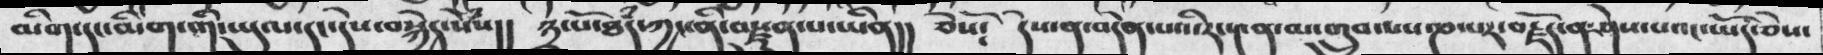མིག་དང་མིག་གི་ཡུལ་དང་དེས་བསྐྱེད་སེཾས།། ༣་པོ་ཐཾད་ཀྱང་ནི་བསྫུན་པ་ཡིན།། ཅེསོ༴ དེས་ན་བདེན་པའི་རང་༤ན་མ་གྲུབ་པས་ཎ་པར་བརྗོད་ན་ཤེས་པའང་ཡོད་ཅེས་
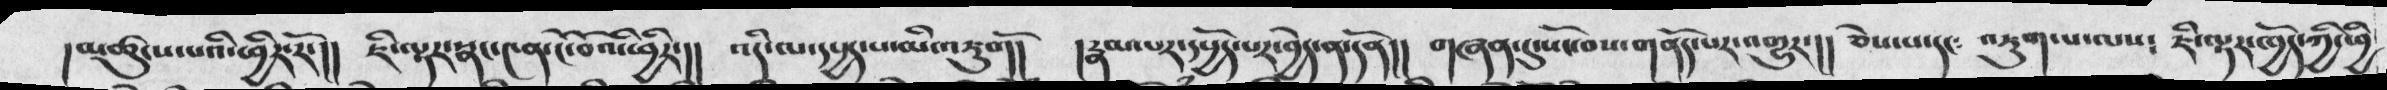།མཚུངས་པའི་ཕྱིར་རོ་།། ཇི་ལྟར་སྣང་༤ན་ངོ་བོའི་ཕྱིར་།། འདི་ལ་དཔྱད་པ་མི་འཇུགོ། །རྣམ་པར་དཔྱོད་པར་བྱེད་ན་དོན།། གཞན་དུ་སོང་བས་གནོད་པར་འགྱུར་།། ཅེས་པ་དང༴ འཇུག་པ་ལས༴ ཇི་ལྟར་ཁྱོད་ཀྱི་ཕྱི
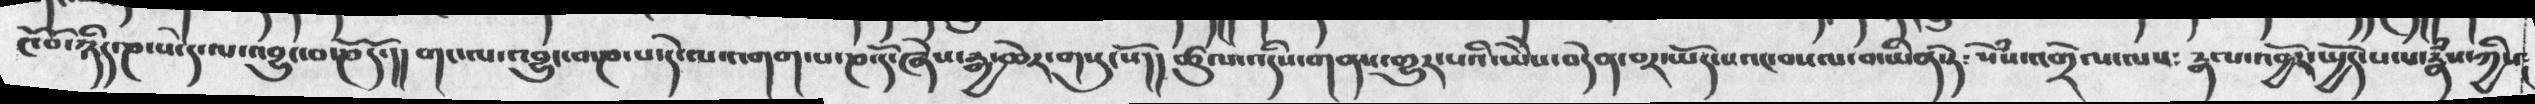ངོ་བོ་ཉིད་ཎ་པ་དེ་ལ་འབྱུང་བ་ཎོ་དོ་།། གང་ལ་འབྱུང་བ་ཎ་པ་དེ་ལ་འགག་པ་ཎ་དོ་ཞེས་རྒྱ་ཆེར་གསུངསོ།། ཚུལ་འདིས་གནས་གྱུར་པའི་ཡཻས་བདེན་བར་ཡོད་པའང་བསལ་བ་ཡིན་ཏེ༴ སེཾས་འགྲེལ་ལས༴ རྣལ་འབྱོར་སྤྱོད་པ་པ་རྣཾས་ཀྱིས༴
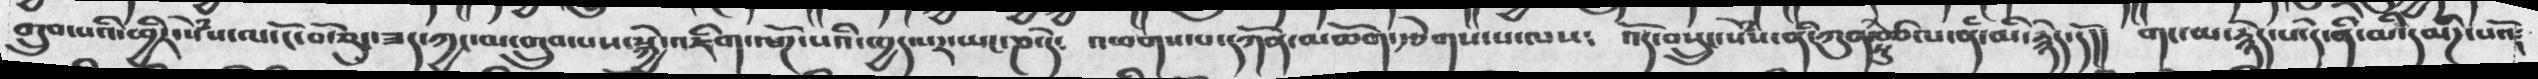གྲུབ་པའི་ཕྱིར་སེཾས་ལ་ངོ་བོ་ཅུང་ཟད་ཀྱང་མ་གྲུབ་པས་སྐྱེ་འཇིག་ལོཌ་པའི་ཁྱད་པར་ཡང་ཎ་དེ༴  འཕགས་པ་དཀོན་མཆོག་རྩེགས་པ་ལས༴  འོད་བསྲུང་སེཾས་ནི་ཀུན་ཏུ་བཙལ་ནི་མི་རྙེད་དོ།།  གང་མ་རྙེད་པའི་དེ་ནི་མི་དམིཌ་པའོ༴
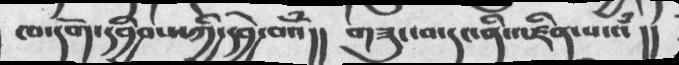ཁ་དོག་དབྱིབས་ཀྱི་དབྱེ་བའཾ།། གཟུང་བ་དང་ནི་འཛིན་པ་འཾ།།
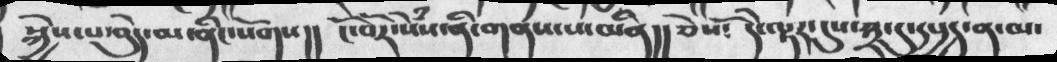སྐྱེས་པ་བེུད་མ་ནིང་སོགས།། ངོ་བོར་སེཾས་ནི་གནས་པ་མིན།།ཅེསོ༴ དེ་ལྟར་དུས་༣་དུ་དཔྱད་ན་མ་
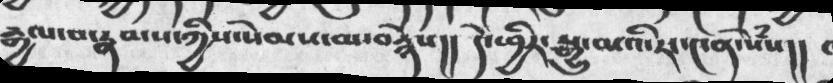རྒྱལ་བ་རྣམས་ཀྱིས་སེམས་མ་བརྙེས།།  དེ་ཕྱིར་སྒྱུ་མའི་རང་༤ན་སེཾས།།
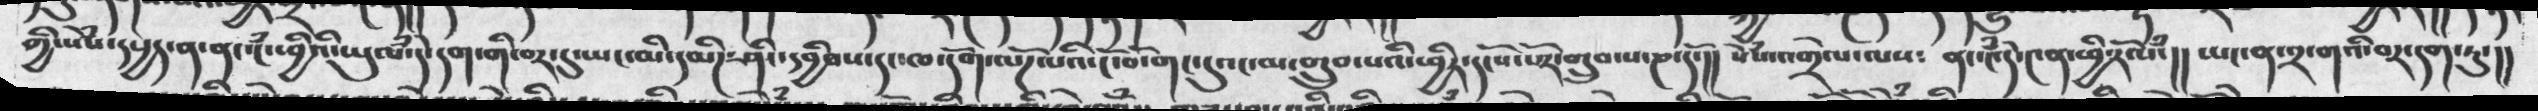ཀྱི་སེཾས་དཔྱད་ན་ན་ངཾ་ཕྱིའི་ཡུལཾ་དེ་དག་གི་བར་དུ་ཡང་མི་དམིཌ་ཤིང་དབྱིབས་དང་ཁ་དོག་ལོཌ་པའི་ངོ་བོ་གང་དུའང་མ་གྲུབ་པའི་ཕྱིར་དངོས་པོར་གྲུབ་པ་ཎ་ངོ་།།  སེཾས་འགྲེལ་ལས༴  ནང་༤ཾདེ་༤ན་ཕྱི་རོལཾ་།།  ཡང་ན་༢་གའི་བར་དག་ཏུ་།།
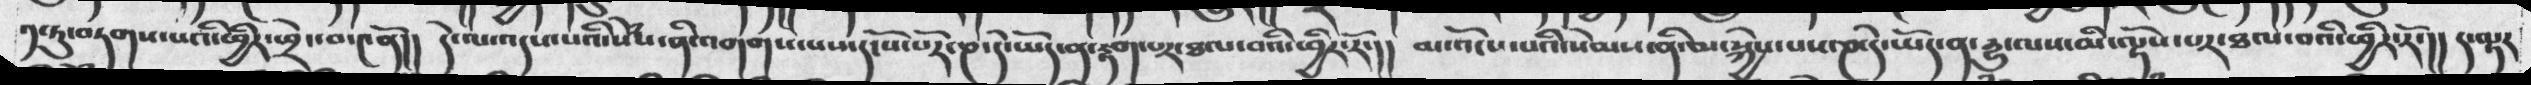༡་ཏུ་བཏགས་པའི་ཕྱིར་ཕྲེང་བ་༤ནོ།། དེ་ལ་འདས་པའི་སེཾས་ནི་འགགས་པས་དངོས་པོར་ཎ་དེ་ཡོད་ན་རྟག་པར་ཐལ་བའི་ཕྱིར་རོ་།། མ་འོངས་པའི་སེམས་ནི་མ་སྐྱེས་པས་ཎ་དེ་ཡོད་ན་དྱུ་ལས་མི་ལྟོས་པར་ཐལ་བའི་ཕྱིར་རོ་།། ད་ལྟར
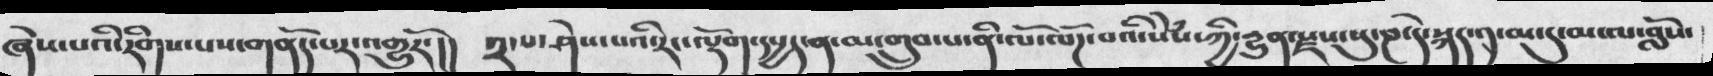ཞེས་པའི་རིགས་པས་གནོད་པར་འགྱུརོ་།། ༢་པ་ཤེས་པའི་རང་ལྡོག་དཔྱད་ན་མ་གྲུབ་པ་ནི་ལོ་ལོཌ་པའི་སེཾས་ཀྱི་དྱུན་སྫས་སུ་ཎ་དེ་སྐད་༡་མ་ལ་བློས་
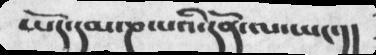ཡོད་དམ་ཎ་པའི་དོན་ལ་ཡང་།།
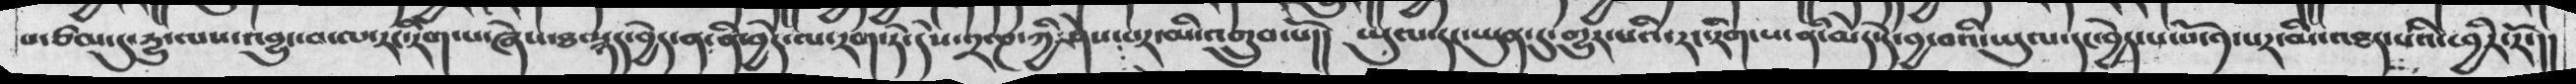པ་ཙམ་དུ་དྱུ་ལས་འབྱུང་བ་ལ་རང་རིག་པ་ཞེས་ཐ་སྙད་བྱེད་ན༴ ནི་བྱེད་ལ་རག་ཏེ་དེས་༢་ཎ་ཀྱི་ཤེས་པར་མི་འགྲུབ་པོ།། ཡུལ་དང་ཡུན་དུ་གྱུར་པའི་རང་རིག་པ་ནི་མེད་དེ་བྱ་བའི་ཡུལ་དང་བྱེད་པ་པོ་༡་པར་མི་འཐད་པའི་ཕྱིར་རོ་།།
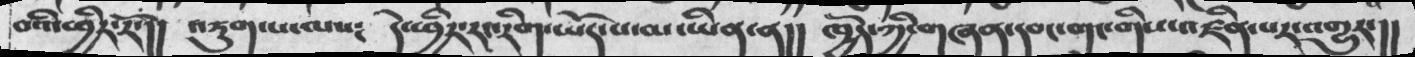བའི་ཕྱིར་རོ་།། འཇུག་པ་ལས༴ དེ་ཕྱིར་རང་རིག་ཡོད་པ་མ་ཡིན་ན།། ཁྱོད་ཀྱི་གཞན་དབང་གང་གིས་འཛིན་པར་འགྱུར་།།
